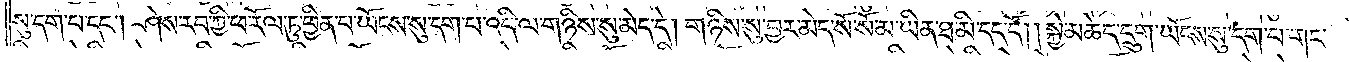སུ་དག་པ་དང༌། ཤེས་རབ་ཀྱི་ཕ་རོལ་ཏུ་ཕྱིན་པ་ཡོངས་སུ་དག་པ་འདི་ལ་གཉིས་སུ་མེད་དེ། གཉིས་སུ་བྱར་མེད་སོ་སོ་མ་ཡིན་ཐ་མི་དད་དོ། །སྐྱེ་མཆེད་དྲུག་ཡོངས་སུ་དག་པ་གང་
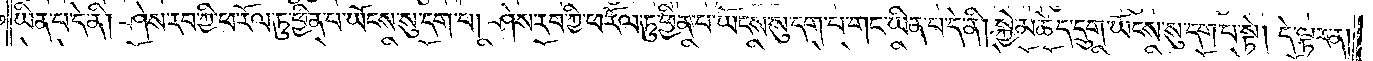ཡིན་པ་དེ་ནི། ཤེས་རབ་ཀྱི་ཕ་རོལ་ཏུ་ཕྱིན་པ་ཡོངས་སུ་དག་པ། ཤེས་རབ་ཀྱི་ཕ་རོལ་ཏུ་ཕྱིན་པ་ཡོངས་སུ་དག་པ་གང་ཡིན་པ་དེ་ནི། སྐྱེ་མཆེད་དྲུག་ཡོངས་སུ་དག་པ་སྟེ། དེ་ལྟར་ན།
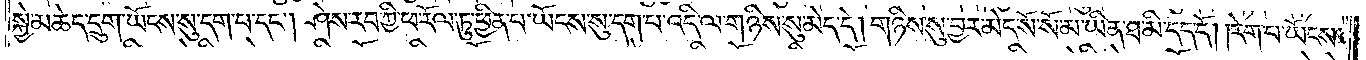སྐྱེ་མཆེད་དྲུག་ཡོངས་སུ་དག་པ་དང༌། ཤེས་རབ་ཀྱི་ཕ་རོལ་ཏུ་ཕྱིན་པ་ཡོངས་སུ་དག་པ་འདི་ལ་གཉིས་སུ་མེད་དེ། གཉིས་སུ་བྱར་མེད་སོ་སོ་མ་ཡིན་ཐ་མི་དད་དོ། །རེག་པ་ཡོངས་
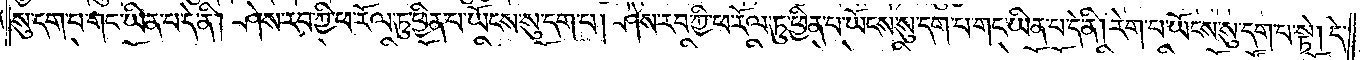སུ་དག་པ་གང་ཡིན་པ་དེ་ནི། ཤེས་རབ་ཀྱི་ཕ་རོལ་ཏུ་ཕྱིན་པ་ཡོངས་སུ་དག་པ། ཤེས་རབ་ཀྱི་ཕ་རོལ་ཏུ་ཕྱིན་པ་ཡོངས་སུ་དག་པ་གང་ཡིན་པ་དེ་ནི། རེག་པ་ཡོངས་སུ་དག་པ་སྟེ། དེ་
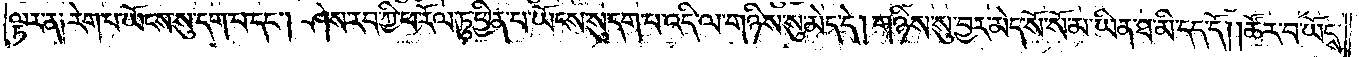ལྟར་ན༑ རེག་པ་ཡོངས་སུ་དག་པ་དང༌། ཤེས་རབ་ཀྱི་ཕ་རོལ་ཏུ་ཕྱིན་པ་ཡོངས་སུ་དག་པ་འདི་ལ་གཉིས་སུ་མེད་དེ། གཉིས་སུ་བྱར་མེད་སོ་སོ་མ་ཡིན་ཐ་མི་དད་དོ། །ཚོར་བ་ཡོངས་
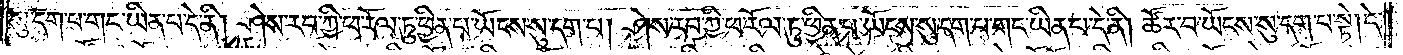སུ་དག་པ་གང་ཡིན་པ་དེ་ནི། ཤེས་རབ་ཀྱི་ཕ་རོལ་ཏུ་ཕྱིན་པ་ཡོངས་སུ་དག་པ། ཤེས་རབ་ཀྱི་ཕ་རོལ་ཏུ་ཕྱིན་པ་ཡོངས་སུ་དག་པ་གང་ཡིན་པ་དེ་ནི། ཚོར་བ་ཡོངས་སུ་དག་པ་སྟེ། དེ་
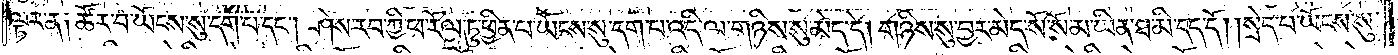ལྟར་ན༑ ཚོར་བ་ཡོངས་སུ་དག་པ་དང༌། ཤེས་རབ་ཀྱི་ཕ་རོལ་ཏུ་ཕྱིན་པ་ཡོངས་སུ་དག་པ་འདི་ལ་གཉིས་སུ་མེད་དེ། གཉིས་སུ་བྱར་མེད་སོ་སོ་མ་ཡིན་ཐ་མི་དད་དོ། །སྲེད་པ་ཡོངས་སུ་
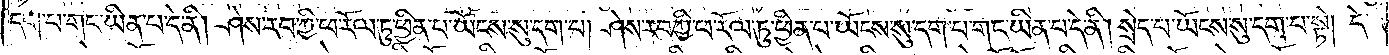དག་པ་གང་ཡིན་པ་དེ་ནི། ཤེས་རབ་ཀྱི་ཕ་རོལ་ཏུ་ཕྱིན་པ་ཡོངས་སུ་དག་པ། ཤེས་རབ་ཀྱི་ཕ་རོལ་ཏུ་ཕྱིན་པ་ཡོངས་སུ་དག་པ་གང་ཡིན་པ་དེ་ནི། སྲེད་པ་ཡོངས་སུ་དག་པ་སྟེ། དེ་
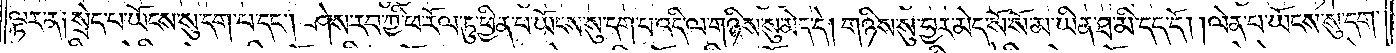ལྟར་ན༑ སྲེད་པ་ཡོངས་སུ་དག་པ་དང༌། ཤེས་རབ་ཀྱི་ཕ་རོལ་ཏུ་ཕྱིན་པ་ཡོངས་སུ་དག་པ་འདི་ལ་གཉིས་སུ་མེད་དེ། གཉིས་སུ་བྱར་མེད་སོ་སོ་མ་ཡིན་ཐ་མི་དད་དོ། །ལེན་པ་ཡོངས་སུ་དག་
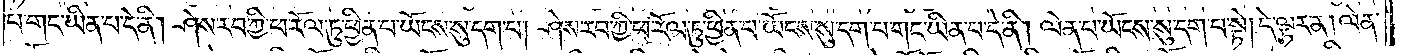པ་གང་ཡིན་པ་དེ་ནི། ཤེས་རབ་ཀྱི་ཕ་རོལ་ཏུ་ཕྱིན་པ་ཡོངས་སུ་དག་པ། ཤེས་རབ་ཀྱི་ཕ་རོལ་ཏུ་ཕྱིན་པ་ཡོངས་སུ་དག་པ་གང་ཡིན་པ་དེ་ནི། ལེན་པ་ཡོངས་སུ་དག་པ་སྟེ། དེ་ལྟར་ན། ལེན་
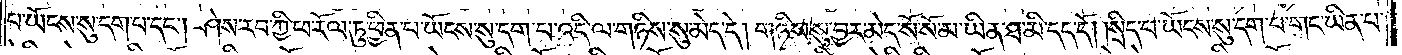པ་ཡོངས་སུ་དག་པ་དང༌། ཤེས་རབ་ཀྱི་ཕ་རོལ་ཏུ་ཕྱིན་པ་ཡོངས་སུ་དག་པ་འདི་ལ་གཉིས་སུ་མེད་དེ། གཉིས་སུ་བྱར་མེད་སོ་སོ་མ་ཡིན་ཐ་མི་དད་དོ། །སྲིད་པ་ཡོངས་སུ་དག་པ་གང་ཡིན་པ་
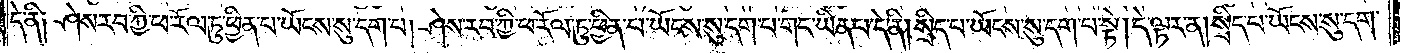དེ་ནི༑ ཤེས་རབ་ཀྱི་ཕ་རོལ་ཏུ་ཕྱིན་པ་ཡོངས་སུ་དག་པ། ཤེས་རབ་ཀྱི་ཕ་རོལ་ཏུ་ཕྱིན་པ་ཡོངས་སུ་དག་པ་གང་ཡིན་པ་དེ་ནི། སྲིད་པ་ཡོངས་སུ་དག་པ་སྟེ། དེ་ལྟར་ན། སྲིད་པ་ཡོངས་སུ་དག་
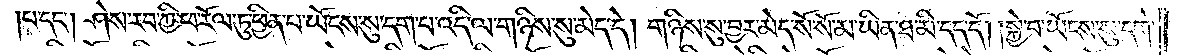པ་དང༌། ཤེས་རབ་ཀྱི་ཕ་རོལ་ཏུ་ཕྱིན་པ་ཡོངས་སུ་དག་པ་འདི་ལ་གཉིས་སུ་མེད་དེ། གཉིས་སུ་བྱར་མེད་སོ་སོ་མ་ཡིན་ཐ་མི་དད་དོ། །སྐྱེ་བ་ཡོངས་སུ་དག་
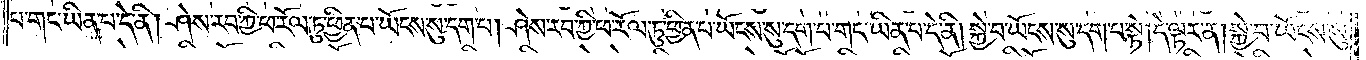པ་གང་ཡིན་པ་དེ་ནི། ཤེས་རབ་ཀྱི་ཕ་རོལ་ཏུ་ཕྱིན་པ་ཡོངས་སུ་དག་པ། ཤེས་རབ་ཀྱི་ཕ་རོལ་ཏུ་ཕྱིན་པ་ཡོངས་སུ་དག་པ་གང་ཡིན་པ་དེ་ནི། སྐྱེ་བ་ཡོངས་སུ་དག་པ་སྟེ། དེ་ལྟར་ན། སྐྱེ་བ་ཡོངས་སུ་
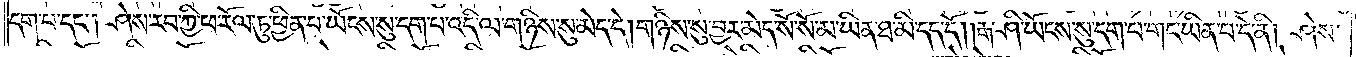དག་པ་དང༌། ཤེས་རབ་ཀྱི་ཕ་རོལ་ཏུ་ཕྱིན་པ་ཡོངས་སུ་དག་པ་འདི་ལ་གཉིས་སུ་མེད་དེ། གཉིས་སུ་བྱར་མེད་སོ་སོ་མ་ཡིན་ཐ་མི་དད་དོ། །རྒ་ཤི་ཡོངས་སུ་དག་པ་གང་ཡིན་པ་དེ་ནི། ཤེས་
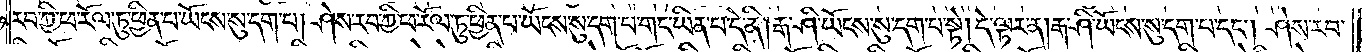རབ་ཀྱི་ཕ་རོལ་ཏུ་ཕྱིན་པ་ཡོངས་སུ་དག་པ། ཤེས་རབ་ཀྱི་ཕ་རོལ་ཏུ་ཕྱིན་པ་ཡོངས་སུ་དག་པ་གང་ཡིན་པ་དེ་ནི། རྒ་ཤི་ཡོངས་སུ་དག་པ་སྟེ། དེ་ལྟར་ན། རྒ་ཤི་ཡོངས་སུ་དག་པ་དང༌། ཤེས་རབ་
